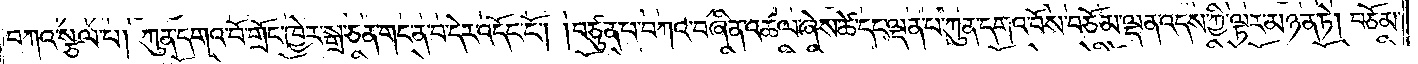བཀའ་སྩལ་པ། ཀུན་དགའ་བོ་གྲོང་ཁྱེར་སྒྲ་ཅན་གང་ན་བ་དེར་འདོང་ངོ༌། །བཙུན་པ་བཀའ་བཞིན་འཚལ་ཞེས་ཚེ་དང་ལྡན་པ་ཀུན་དགའ་བོས་བཅོམ་ལྡན་འདས་ཀྱི་ལྟར་མཉན་ཏེ། བཅོམ་
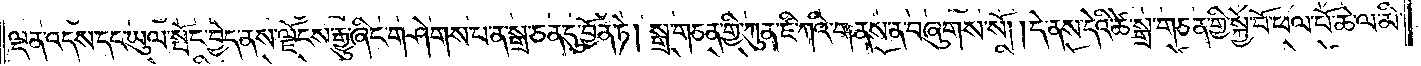ལྡན་འདས་དང་ཡུལ་སྤོང་བྱེད་ནས་ལྗོངས་རྒྱུ་ཞིང་གཤེགས་པ་ན་སྒྲ་ཅན་དུ་བྱོན་ཏེ། སྒྲ་གཅན་གྱི་ཀུན་ཛི་ཀའི་གནས་ན་བཞུགས་སོ། །དེ་ནས་དེའི་ཚེ་སྒྲ་གཅན་གྱི་སྐྱེ་བོ་ཕལ་པོ་ཆེ་ལ་མི་
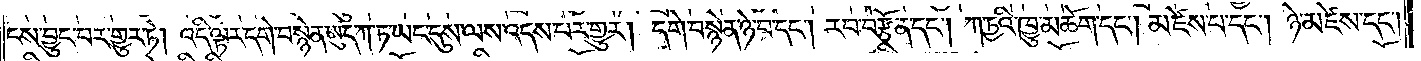ངས་བྱུང་བར་གྱུར་ཏེ། འདི་ལྟར་དགེ་བསྙེན་ཨུད་ཀ་ཏ་ཡང་དུས་ལས་འདས་པར་གྱུར། དགེ་བསྙེན་ཉེ་བ་དང༌། རབ་བརྩོན་དང༌། ཀ་ཏྱའི་ཁྱུ་མཆོག་དང༌། མཛེས་པ་དང༌། ཉེ་མཛེས་དང༌།
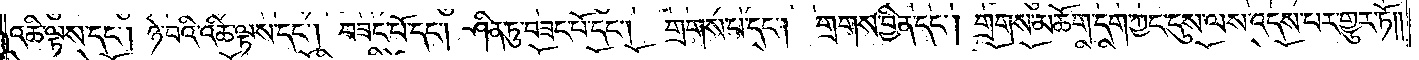འཆི་ལྟས་དང༌། ཉེ་བའི་འཆི་ལྟས་དང༌། བཟང་པོ་དང༌། ཤིན་ཏུ་བཟང་པོ་དང༌། གྲགས་པ་དང༌། གྲགས་བྱིན་དང༌། གྲགས་མཆོག་དག་ཀྱང་དུས་ལས་འདས་པར་གྱུར་ཏོ༎
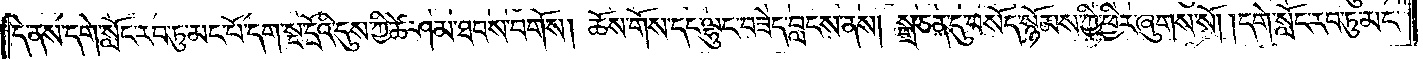དེ་ནས་དགེ་སློང་རབ་ཏུ་མང་པོ་དག་སྔ་དྲོའི་དུས་ཀྱི་ཚེ་ཤམ་ཐབས་བགོས། ཆོས་གོས་དང་ལྷུང་བཟེད་བླངས་ནས། སྒྲ་ཅན་དུ་བསོད་སྙོམས་ཀྱི་ཕྱིར་ཞུགས་སོ། །དགེ་སློང་རབ་ཏུ་མང་
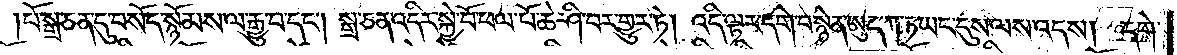པོ་སྒྲ་ཅན་དུ་བསོད་སྙོམས་ལ་རྒྱུ་བ་དང༌། སྒྲ་ཅན་འདིར་སྐྱེ་བོ་ཕལ་པོ་ཆེ་ཤི་བར་གྱུར་ཏེ། འདི་ལྟར་དགེ་བསྙེན་ཨུད་ཀ་ཏ་ཡང་དུས་ལས་འདས། དགེ་
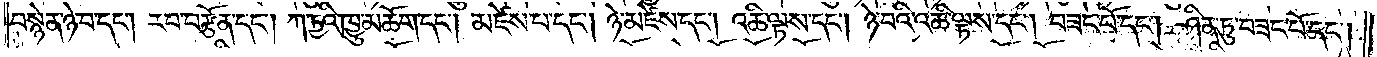བསྙེན་ཉེ་བ་དང༌། རབ་བརྩོན་དང༌། ཀ་ཏྱའི་ཁྱུ་མཆོག་དང༌། མཛེས་པ་དང༌། ཉེ་མཛེས་དང༌། འཆི་ལྟས་དང༌། ཉེ་བའི་འཆི་ལྟས་དང༌། བཟང་པོ་དང༌། ཤིན་ཏུ་བཟང་པོ་དང༌།
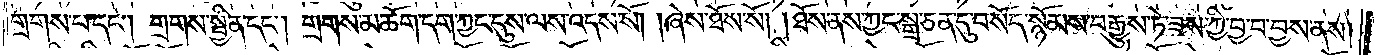གྲགས་པ་དང༌། གྲགས་སྦྱིན་དང༌། གྲགས་མཆོག་དག་ཀྱང་དུས་ལས་འདས་སོ། །ཞེས་ཐོས་སོ། །ཐོས་ནས་ཀྱང་སྒྲ་ཅན་དུ་བསོད་སྙོམས་བརྒྱུས་ཏེ་ཟས་ཀྱི་བྱ་བ་བྱས་ནས།
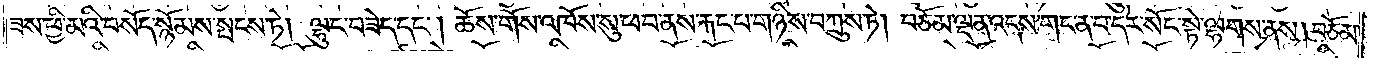ཟས་ཕྱི་མའི་བསོད་སྙོམས་སྤངས་ཏེ། ལྷུང་བཟེད་དང༌། ཆོས་གོས་འཁོས་སུ་ཕབ་ནས་རྐང་པ་གཉིས་བཀྲུས་ཏེ། བཅོམ་ལྡན་འདས་གང་ན་བ་དེར་སོང་སྟེ་ལྷགས་ནས། བཅོམ་
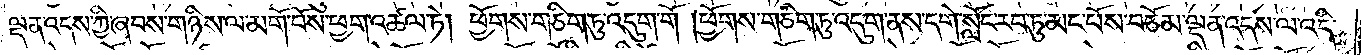ལྡན་འདས་ཀྱི་ཞབས་གཉིས་ལ་མགོ་བོས་ཕྱག་འཚལ་ཏེ། ཕྱོགས་གཅིག་ཏུ་འདུག་གོ །ཕྱོགས་གཅིག་ཏུ་འདུག་ནས་དགེ་སློང་རབ་ཏུ་མང་པོས་བཅོམ་ལྡན་འདས་ལ་འདི་
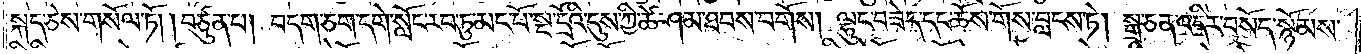སྐད་ཅེས་གསོལ་ཏོ། །བཙུན་པ། བདག་ཅག་དགེ་སློང་རབ་ཏུ་མང་པོ་སྔ་དྲོའི་དུས་ཀྱི་ཚེ་ཤམ་ཐབས་བགོས། ལྷུང་བཟེད་དང་ཆོས་གོས་བླངས་ཏེ། སྒྲ་ཅན་འདིར་བསོད་སྙོམས་
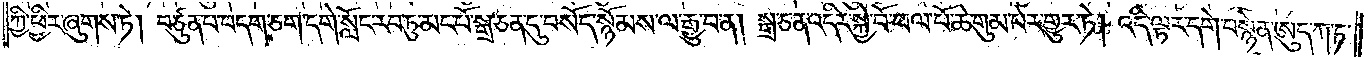ཀྱི་ཕྱིར་ཞུགས་ཏེ། བཙུན་པ་བདག་ཅག་དགེ་སློང་རབ་ཏུ་མང་པོ་སྒྲ་ཅན་དུ་བསོད་སྙོམས་ལ་རྒྱུ་བ་ན། སྒྲ་ཅན་འདིར་སྐྱེ་བོ་ཕལ་པོ་ཆེ་གུམ་པར་གྱུར་ཏེ། འདི་ལྟར་དགེ་བསྙེན་ཨུད་ཀ་ཏ་
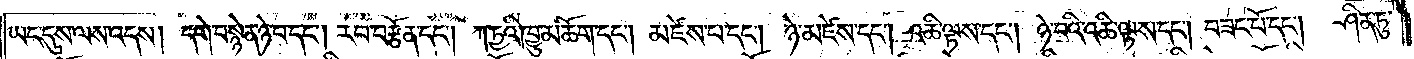ཡང་དུས་ལས་འདས། དགེ་བསྙེན་ཉེ་བ་དང༌། རབ་བརྩོན་དང༌། ཀ་ཏྱའི་ཁྱུ་མཆོག་དང༌། མཛེས་པ་དང༌། ཉེ་མཛེས་དང༌། འཆི་ལྟས་དང༌། ཉེ་བའི་འཆི་ལྟས་དང༌། བཟང་པོ་དང༌། ཤིན་ཏུ་
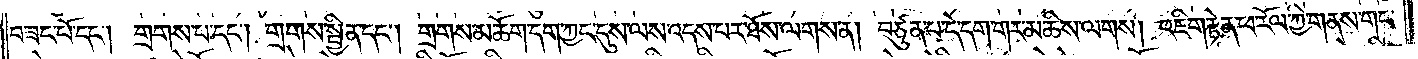བཟང་པོ་དང༌། གྲགས་པ་དང༌། གྲགས་སྦྱིན་དང༌། གྲགས་མཆོག་དག་ཀྱང་དུས་ལས་འདས་པར་ཐོས་ལགས་ན། བཙུན་པ་དེ་དག་གར་མཆིས་ལགས། འཇིག་རྟེན་ཕ་རོལ་ཀྱི་གནས་གང་
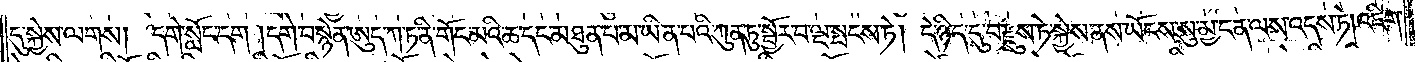དུ་སྐྱེས་ལགས། དགེ་སློང་དག །དགེ་བསྙེན་ཨུད་ཀ་ཏ་ནི་གོང་མའི་ཆ་དང་མཐུན་པ་མ་ཡིན་པའི་ཀུན་ཏུ་སྦྱོར་བ་ལྔ་སྤངས་ཏེ། དེ་ཉིད་དུ་བརྫུས་ཏེ་སྐྱེས་ནས་ཡོངས་སུ་མྱ་ངན་ལས་འདས་ཏེ། འཇིག་
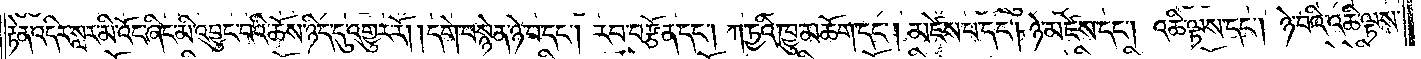རྟེན་འདིར་སླར་མི་འོང་ཞིང་མི་འབྱུང་བའི་ཆོས་ཉིད་དུ་འགྱུར་རོ། །དགེ་བསྙེན་ཉེ་བ་དང༌། རབ་བརྩོན་དང༌། ཀ་ཏྱའི་ཁྱུ་མཆོག་དང༌། མཛེས་པ་དང༌། ཉེ་མཛེས་དང༌། འཆི་ལྟས་དང༌། ཉེ་བའི་འཆི་ལྟས་
